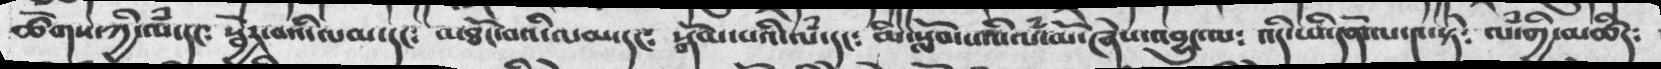ཚོགས་ཀྱི་ལཾ་དང༴  སྦྱོར་བའི་ལམ་དང༴   མཐོང་བའི་ལམ་དང༴   སྒོམ་པའི་ལཾ་དང༴  མི་སློབ་པའི་ལཾ་མོ་ཞེས་འབྱུང་ལ༴  འདི་ཡི་དོན་ལ་༤་སྟེ༴   ལཾ་གྱི་མཚིད༴
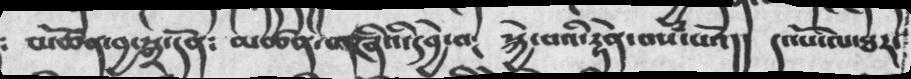༴ མཚོན་བྱ་སྒྲ་དོན༴  མཚན་གཞིའི་དབྱེ་བ༴  སྐྱེ་བའི་རྟེན་བསཾ་པའོ།།  དང་པོ་ལ་ཐར་
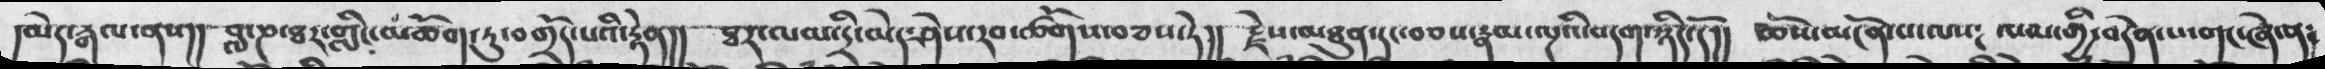།མེད་རྒལ་ནས།།   བླ་ཎ་ཐར་གླིང་མཆོག་ཏུ་བགྲོད་པའི་རྟེན།།    ཐར་ལམ་དྲི་མེད་ཤེས་རབ་ཚོགས་བཅས་ཏེ།།    རྗེས་མཐུན་དང་བཅས་རྣམ་ལྔའི་བདག་ཉིད་དོ།།    ཆོས་མངོན་པ་ལས༴ ལམ་གྱི་བདེན་པ་གང་ཞེ་ན༴
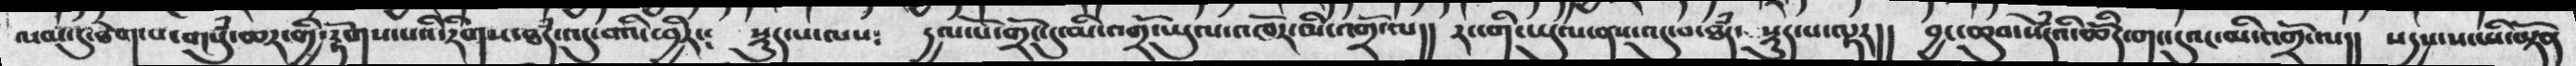ལམ་དུ་ཐེག་པ་གསུཾ་ཆར་གྱི་རྟོགས་པའི་རིགས་ཐཾད་འདུ་བའི་ཕྱིར་༴  སྡུད་པ་ལས༴  དྱལ་པོ་གྲོང་དུ་མི་འགྲོ་ཡུལ་འཁོར་མི་འགྲོ་ལ།། རང་གི་ཡུལ་ནས་འདུ་བ་ཐཾད་ སྡུད་པ་ལྟར།།  བྱང་ཆུབ་སེཾདའི་ཆོིད་གང་དུའང་མི་འགྲོ་ལ།། སདྱས་ས་ཡི་ཡྟོན
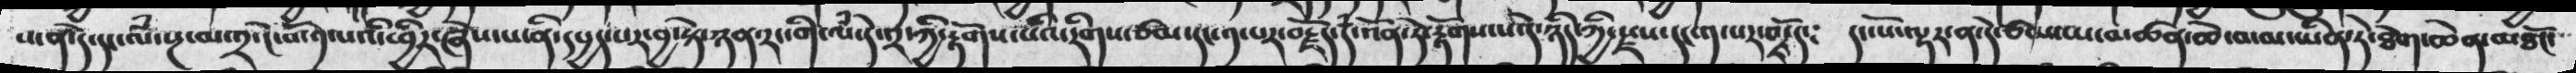ས་དེ་དང་ལཾ་སྔ་མ་༢་ངོ་བོ་༡་པའི་ཕྱིར་ཞེས་པ་ནི་དཔྱད་པར་བྱ་སྟེ་ཉན་རང་གི་ལཾ་དེ་པར་ཀྱི་རྟོགས་པའི་རིགས་ཙམ་དང༡་པར་བརྗོད་དཾ་འོན་ཏེ་རྟོགས་པ་དེ་ཉིད་ཀྱི་རྗས་དང་༡་པར་བརྗོད༴   དང་པོ་ལྟར་ན་དེ་ཙམ་ཡ་མཚན་ཆེ་བ་མ་ཡིན་ཏེ་ཐེག་ཆེན་མཐོང་
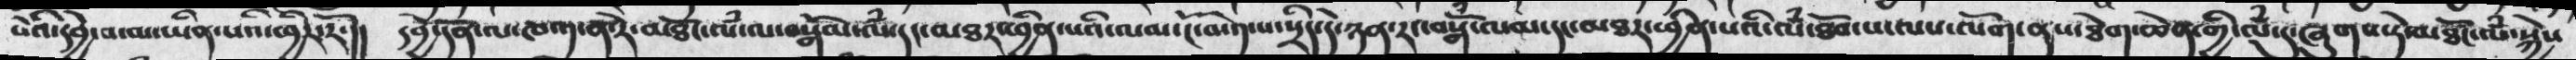སེའི་དབྱེ་བ་མ་ཡིན་པའི་ཕྱིར་རོ་།།  དབྱེ་དོན་ལ་ཁ་༡་ན་རེ་མཐོང་ལཾ་ལ་བསྒོམ་ལཾ་དང་མཐར་ཕྱིན་པའི་ལམ་ངོ་བོ་༡་པ་སྲིད་དེ་ཉན་རང་བསྒོཾ་ལམ་དདང་མཐར་ཕྱིན་པའི་ལཾ་ཐོབ་པ་ལས་ལོག་ནས་ཐེག་ཆེན་གྱི་ལཾ་དུ་ཞུགས་ཏེ་མཐོང་ལཾ་སྐྱེས་
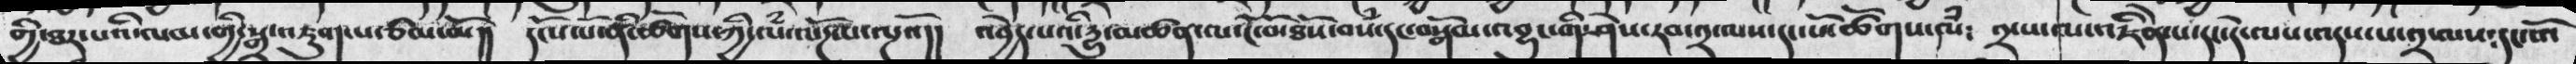གྱི་ཐར་པའི་ལམ་གྱི་སྒྲ་འཇུགས་པ་ཙམ་མོ།།   དངོས་པོ་ནི་ཚོགས་ཀྱི་ལཾ་ལོཌ་པ་ལྔའོ།།   འབྱེད་པའི་རྱུ་མཚན་ལ་ངོ་བོ་ཐོས་བསཾ་དང་བསྒོམ་འབྱུང་གི་ཤེས་རབ་༢་ལས་དང་པོ་ཚོགས་ལཾ་  ༢་པ་ལ་འཇིེན་པ་དང་དེ་ལས་འདས་པ་༢་ལས་དང་པོ་
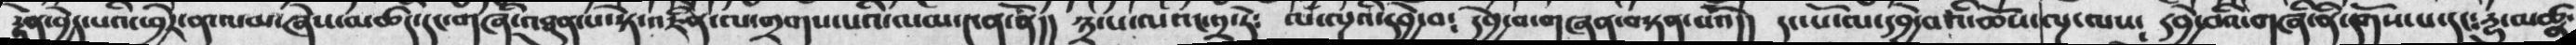རྟེན་བྱེད་པའི་ཕྱིར་ན་ལམ་ཞེས་མཚིད་དང་གཞི་མཐུན་པ་སྟེ་འཛིན་ལ་གྲགས་པའི་ལམ་༤ན་ནོ།།   ༣་པ་ལའང་༢་ཏེ༴   ལཾ་ལྔའི་དབྱེ་བ༴   དབྱེ་བ་གཞན་བསྟན་པའོ།།   དང་པོ་ལ་དབྱེ་བའི་ཆོས་ལྔ་ལས་༴   དབྱེ་བའི་གཞི་ནི་དགོས་པ་རྱུ་མཚན་
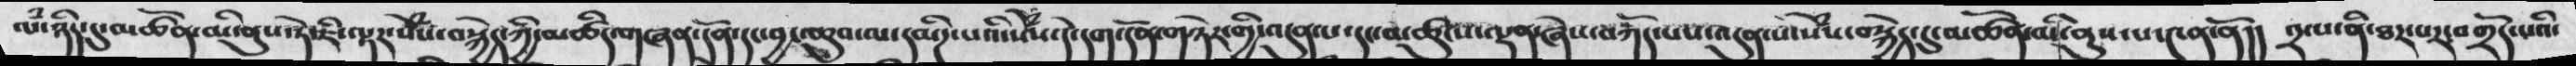ལམ་ཉིད་དུ་མཚོན་མི་ནུས་ཏེ་ཇི་ལྟར་སེཾས་བསྐྱེད་ཀྱི་མཚིད་གཞན་དོན་དང་བྱང་ཆུབ་ལ་དམིཌ་པའི་སེཾས་དེ་དག་དོན་གཉེར་གྱི་འདུན་པ་དང་མཚུངས་ལྡན་ཞེས་བཀོད་པས་འདུན་པ་སེཾས་བསྐྱེད་དུ་མཚོན་མི་ནུས་པ་༤ན་ནོ།། ༢་པ་ནི་ཐར་པར་་བགྲོད་པའི་
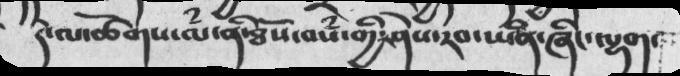དེ་ལ་ཚོགས་ལཾ་ནི་ཐོས་བསཾ་གྱི་ཤེས་རབ་ཡིན་ཞིང་ལྷག་
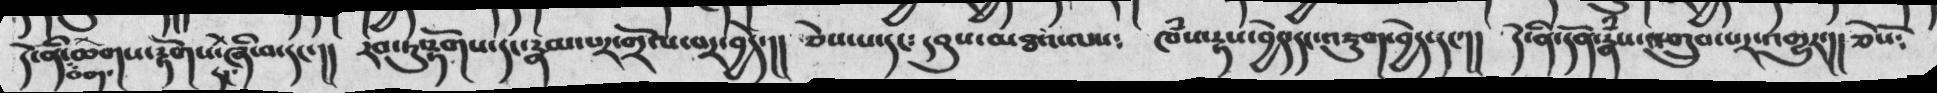དེ་ནི་བག་ཆགས་རྟོགས་དང་ཞི་བ་དང་།།  རབ་རུ་རྟོགས་དང་རྣམ་པར་གྲོལ་བར་བྱེད་།།  ཅེས་པ་དང༴  དབུས་མཐའ་ལས༴ ཁཾས་རྟས་བྱེད་དང་འཇུག་བྱེད་དང་།།  དེ་ནི་དོན་རྣཾས་འགྲུབ་པར་འགྱུར་།། ཅེསོ༴
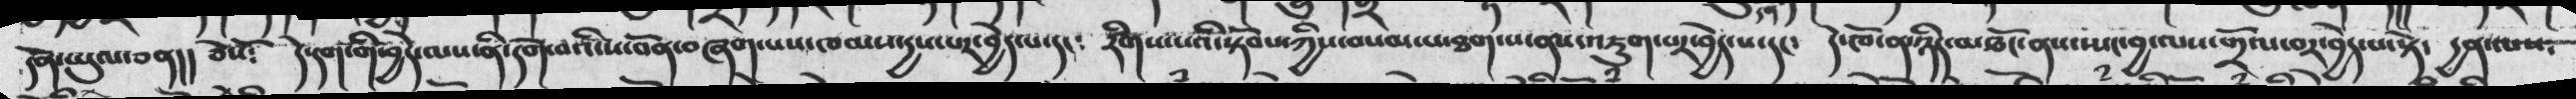དོན་ཡུལ་ཅན།།  ཅེསོ༴  དེ་དག་གི་བྱེད་ལས་ནི་དགེ་བའི་ས་བོན་བཞག་པས་ཁམས་དྱས་པར་བྱེད་པ་དང༴  རིགས་པའི་སྟོབས་ཀྱིས་བསམ་པ་ཐག་པ་ནས་འཇུག་པར་བྱེད་པ་དང༴  དེ་ཁོ་ན་ཉིད་མཐོང་ནས་སྤང་བྱ་ལས་གྲོལ་བར་བྱེད་པ་སྟེ་  དྱན་ལས༴
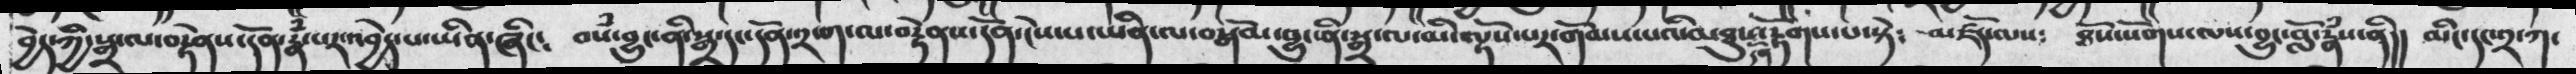བྱེད་ཀྱི་སྒྲ་ལ་བརྟེནས་དོན་རྣཾ་པར་འབྱེད་པ་ཡིན་ཞིང༴  བསཾ་བྱུང་ནི་སྒྲ་དང་དོན་༢་ག་ལ་བརྟེནས་དོན་ངེས་པ་ཡིན་ལ་བསྒོམ་བྱུང་ནི་སྒྲ་ལ་མི་ལྟོས་པར་གོམས་པའི་མཐུ་དགོ་རྟོགས་པ་སྟེ༴  མཛོད་ལས༴  ཐོས་སོགས་ལས་བྱུང་བློ་རྣཾས་ནི།།  མིང་དང་༢་ཀ་
